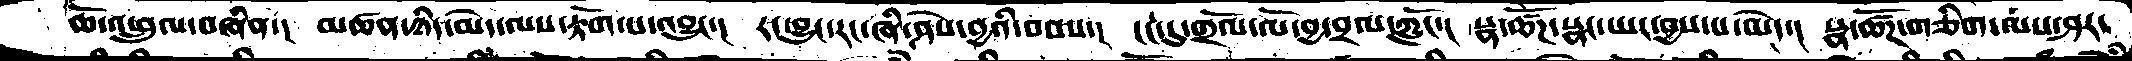ཆོ་འཕྲུལ་བཞིན་།  མཚན་ཉིད་མེད་ལས་རྟོག་པ་འབྱུང་།  རང་བྱུང་རང་ཞི་ཤེས་བྱའི་བབས་།  ངང་དུ་གྲོལ་ལོ་བྱ་བྲལ་ཀློང་།  སྣ་ཚོཌ་སྣང་ཡང་བྱས་པ་མེད་།  སྣ་ཚོཌ་གཅིག་ལས་ཤར་
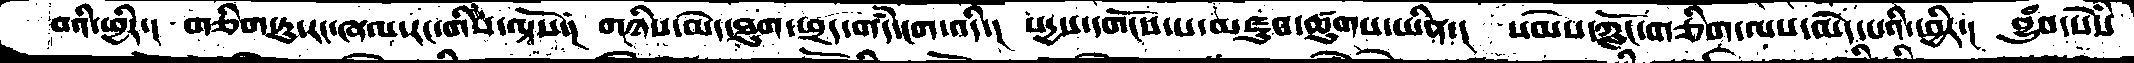བའི་ཕྱིར་།  གཅིག་ཏུ་རང་ཞལ་རང་གིས་ལྟོས་།  གཉིས་མེད་ཐུག་ཕྲད་གདཾ་ངག་འདི་།  སདྱས་དགོངས་པ་མཛུབ་ཚུགས་ཡིན་།  སེམས་ཀློང་གཅིག་ལས་མེད་པའི་ཕྱིར་།  བྱུཾབ་སེཾས་
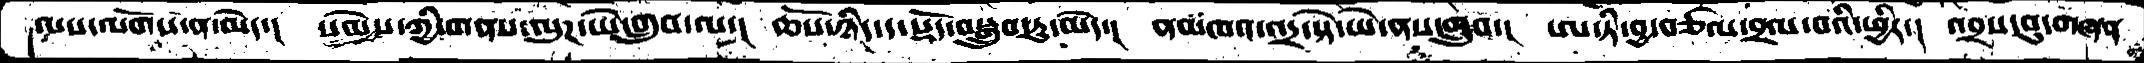ལས་ལོགས་ན་མེད་།  སེམས་ཀྱི་གནས་ལུཌ་ཡེ་གྲུབ་ལ་།  ཆོས་ཉིད་ད་སྡོད་བསྒྲུབ་ཏུ་མེད་།  ནམཁའ་འདྲ་སྟེ་ཡེ་ནས་གྲུབ་།  ཨ་ཏི་བྱ་བཙལ་བྲལ་བའི་ཕྱིར་།  འབྲས་བུ་གཞན་
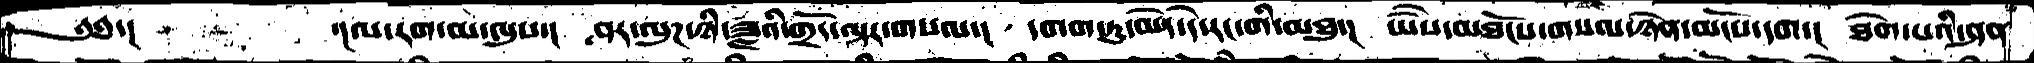༄༅་།     ་།ལ་རག་མ་ལུས་།  ཤར་ལུཌ་ཉི་ཟླའི་གྲོད་ལྟར་གསལ་།  དགག་ཏུ་མེད་དེ་རང་གི་མཐུ་།  ཡཻས་མཐོངས་གསལ་ཉོན་མོངས་དག་།  ཐེག་པའི་ཤན་
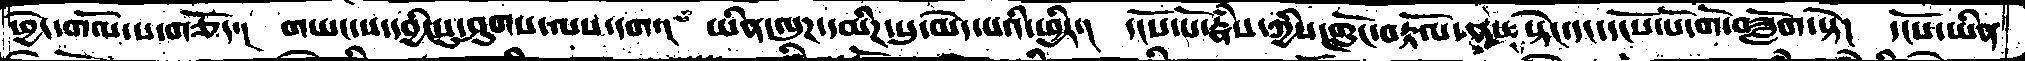ཕྱེད་གོལ་པ་གཅོད་།  གཡང་ས་དབྱིངསུ་ཤུགས་ལས་དག་།  ཡིན་ལུཌ་དམིཌ་སུ་མེད་པའི་ཕྱིར་།  དངོས་པོ་རྣཾས་ཀྱིས་གློང་བརྟོལ་ནས་ སྟེང་དང་དངོས་པོ་གོ་བཟློག་སྟེ་།  དངོས་ཡིན་
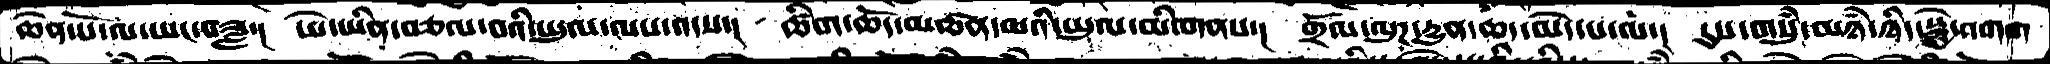ཆེན་པོ་ལ་ཡང་བཟླ་།  ཡེ་ཡིན་བཅལ་བའི་ཡུལ་ལས་འདས་།  ཚིག་ཆོད་མཚན་མའི་ཡུལ་མི་གནས་།  གྲོལ་ལུཌ་དདྱུན་ཆད་མེད་པ་ལ་།  དུས་གསུཾ་མཉཾ་ཉིད་སྐྱེ་འགག
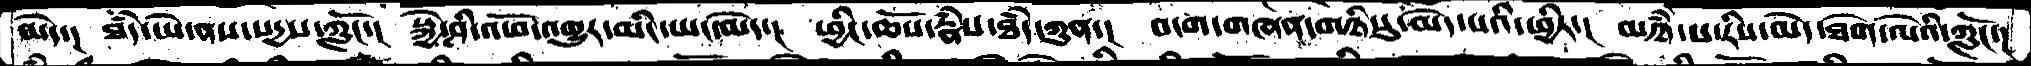མེད་།  ཐཾད་ཡེ་ནས་སདྱས་ཀློང་།  སྐྱེ་ཤི་འཕོ་འགྱུར་མིང་ཡང་མེད་།  ཕྱིང་ཆོས་རྣཾས་ཐཾད་ཀུན་།  བདག་གཞན་གཉིསུ་མེད་པའི་ཕྱིར་།  མཉཾ་པ་རིས་མེད་ཐེག་ལེའི་ཀློང་།
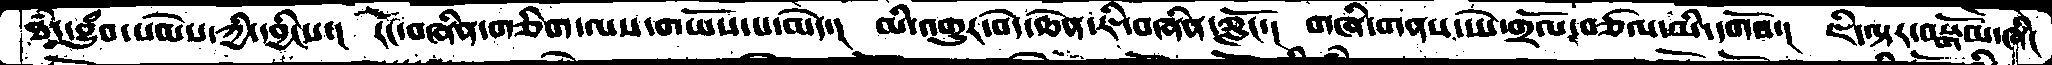ཐཾད་བྱུཾབ་སེམས་ཀྱི་དབྱིངས་།  རང་བཞིན་གཅིག་ལས་གཡོས་པ་མེད་།  མི་འགྱུར་བདེ་ཆེན་ཇི་བཞིན་ཀློང་།  གཞི་གནས་ཡེ་གྲོལ་བཙལ་མི་དགོས།  ཇི་ལྟར་བསྒོམ་ཞིང
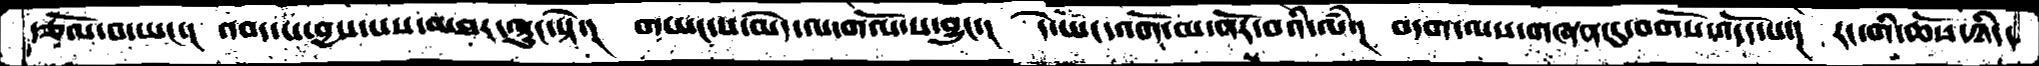རྩོལ་བ་ཡང་།  འབད་པ་བྱས་པས་མཐར་ལྟུང་སྟེ་།  གཡང་ས་མེད་ལ་གོལ་ས་བྱུང་།  དེ་ཡང་འོག་མ་ནོར་བའི་ལཾ་།  བདག་ལས་གཞན་དུ་བགོས་འདོད་པ་།  རང་གི་ཆོས་ཉིད་
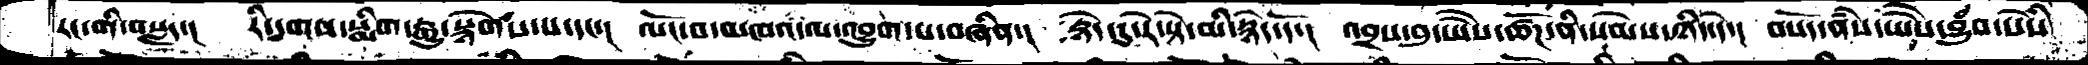རང་གི་བསླད་།  རི་དྭགས་སྨིག་རྒྱུ་སྙེགས་པ་དང་།  ལོང་བ་མཁའ་ལ་འབྱུག་པབཞིན་།  རྙེད་དུ་རེ་སྟེ་མི་སྙེད་དོ་།  འབྲས་བུ་ཡཻས་ཚོཌ་ནི་སེམས་ཉིད་དེ་།  བསོད་ནཾམ་ཡཻས་བྱུཾབ་སེཾས་
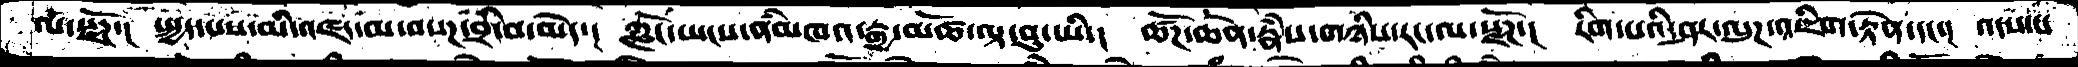ལ་སྫོཌ་། སྤྱད་པས་མི་འཛད་མ་བསཌ་བྲི་བ་མེད་།  ཀློང་ཡངས་ནཾམཁའ་རྒྱ་མཚོ་ལྟ་བུ་ཡི་།  ཚོཌ་ཆེན་རྣཾས་གཉིས་རང་ལ་སྫོཌ་།  རིག་པའི་ཤར་ལུཌའཇིག་རྟེན་དང་།  འདས་པ
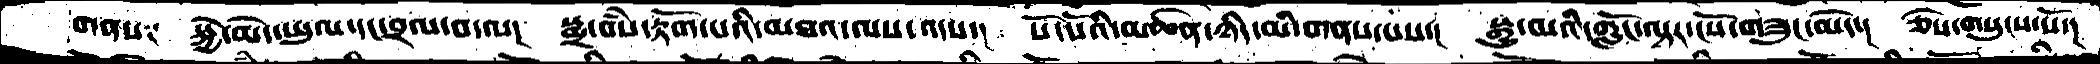གནས༑  སྐྱེ་མེད་ཡུལ་དང་བྲལ་བ་ལ་།  སྨྲ་བསཾ་རྟོག་པའི་མཐའ་ལས་འདས་།  སོ་སོོའི་མཚན་ཉིད་མི་གནས་པས་།  སྒྱུ་མའི་གློང་ལྟར་ངོས་གཟུང་མེད་།  ཅེས་གསུངས་སོ་།
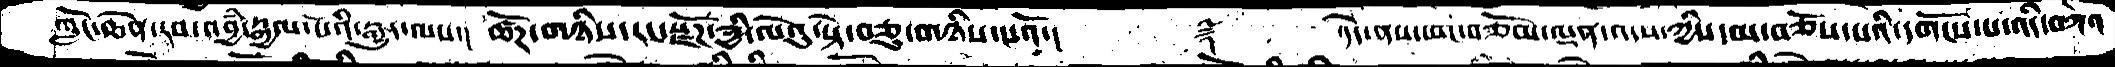ཀློང་ཆེན་རབ་འབྱཾ་རྒྱལ་པོའི་རྒྱུད་ལས་།  ཚོཌ་གཉིས་རང་སྫོགས་ཀྱི་ལེའུ་སྟེ་བཅུ་གཉིས་པའོ་།       ༈      ་ངདེ་ནས་ཡང་བཅོམ་ལྡན་འདས་ཀྱིས་མ་བཅོས་པའི་དགོངས་པ་འདི་བཀའ
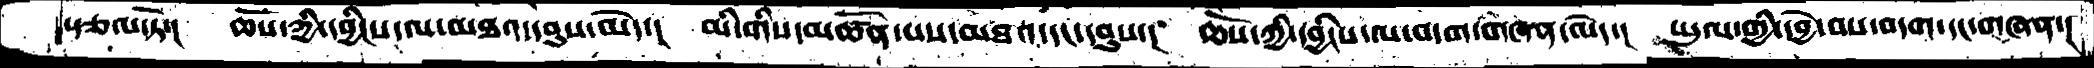སྩལ་ཏོ་།  ཆོས་ཀྱི་དབྱིངས་ལ་མཐའ་དབུས་མེད་།  མི་གིས་མཚོན་པས་མཐའ་དང་དབུས་།  ཆོས་ཀྱི་དབྱིངས་ལ་བདག་གཞན་མེད་།  ཡུལ་གྱི་དབྱེ་བས་བདག་དང་གཞན་།
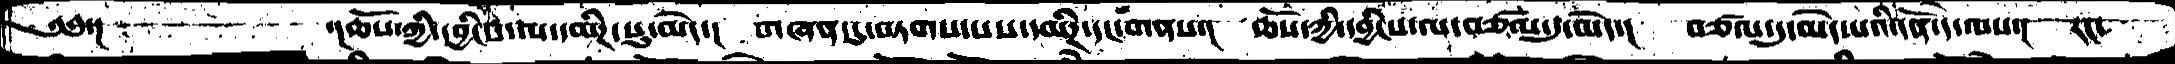༄༅་།           ་།ཆོས་ཀྱི་དབྱིངས་ལ་དམིཌ་སུ་མེད་།  གཞན་དུ་བཏགས་པས་དམིཌ་དང་གནས་།  ཆོས་ཀྱི་དབྱིངས་ལ་བཙལ་དུ་མེད་།   བཙལ་དུ་མེད་པའི་དོན་དེ་ལས་།   རང་
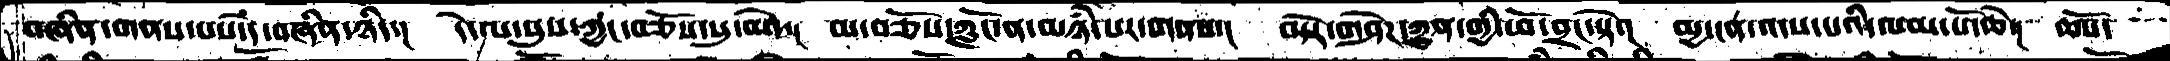བཞིན་གནས་པས་དེ་བཞིན་ཉིད་།   དེ་ལ་སུས་ཀྱང་བཅོས་སུ་མེད་།  མ་བཅོས་ཀློང་ན་མཉཾ་པར་གནས་།   བདེར་གཤེཌ་ཀུན་གྱི་ཕོ་བྲང་སྟེ་།  མྱ་ངན་འདས་པའི་ལམ་པོ་ཆེ་།  ཆོས་
